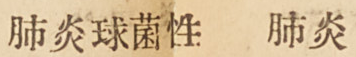肺炎球菌性 肺炎
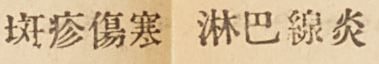斑疹傷寒 淋巴線炎
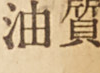油質
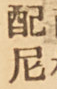配尼
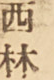西林
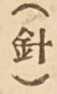（針）
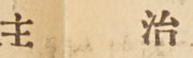主 治
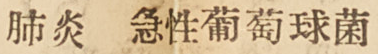肺炎 急性葡萄球菌
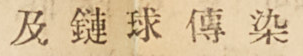及 鏈 球 傳 染
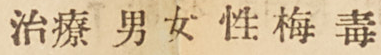治療 男 女 性 梅 毒
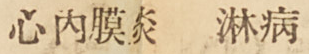心內膜炎 淋病
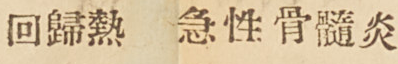回歸熱 急性骨髓炎
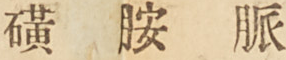磺 胺 脈
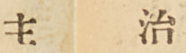主 治
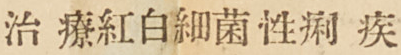治 療紅白細菌性痢 疾
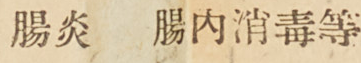腸炎 腸內消毒等
